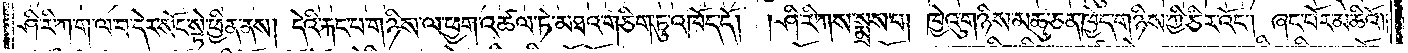ཤི་རི་ཀ་ག་ལ་བ་དེར་སོང་སྟེ་ཕྱིན་ནས། དེའི་རྐང་པ་གཉིས་ལ་ཕྱག་འཚལ་ཏེ་མཐའ་གཅིག་ཏུ་འཁོད་དོ། །ཤི་རི་ཀས་སྨྲས་པ། ཁྱེའུ་གཉིས་མཆུ་ཅན་ཁྱེད་གཉིས་ཀྱི་ཅིར་འོང༌། ཞང་པོར་མཆིའོ༎
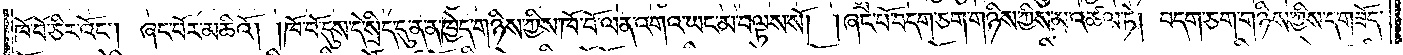ཁོ་བོ་ཅིར་འོང༌། ཞང་པོར་མཆིའོ། །ཁོ་བོ་དུས་དེ་སྲིད་དུ་ན་ན་ཁྱེད་གཉིས་ཀྱིས་ཁོ་བོ་ལན་འགའ་ཡང་མ་བལྟས་སོ། །ཞང་པོ་བདག་ཅག་གཉིས་ཀྱིས་མ་འཚལ་ཏེ། བདག་ཅག་གཉིས་ཀྱིས་ད་གཟོད་
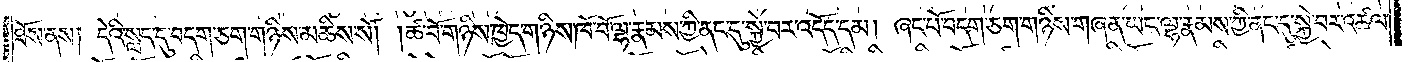ཐོས་ནས། དེའི་སླད་དུ་བདག་ཅག་གཉིས་མཆིས་སོ། །ཚ་བོ་གཉིས་ཁྱེད་གཉིས་ཁོ་བོ་ལྷ་རྣམས་ཀྱི་ནང་དུ་སྐྱེ་བར་འདོད་དམ། ཞང་པོ་བདག་ཅག་གཉིས་གཞན་ཡང་ལྷ་རྣམས་ཀྱི་ནང་དུ་སྐྱེ་བར་འཚལ་
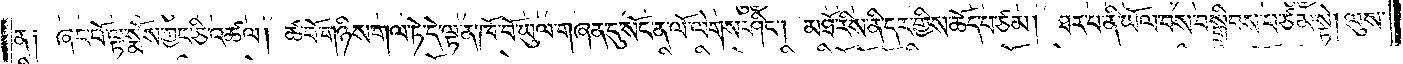ན༑ ཞང་པོ་ལྟ་སྨོས་ཀྱང་ཅི་འཚལ། ཚ་བོ་གཉིས་གལ་ཏེ་དེ་ལྟ་ན་ཁོ་བོ་ཡུལ་གཞན་དུ་སོང་ན་ལོ་ལེགས་ཤིང༌། མཐོ་རིས་ནི་དར་གྱིས་ཆོད་པ་ཙམ། ཐར་པ་ནི་ཡོལ་བས་བསྒྲིབས་པ་ཙམ་སྟེ། ལུས་
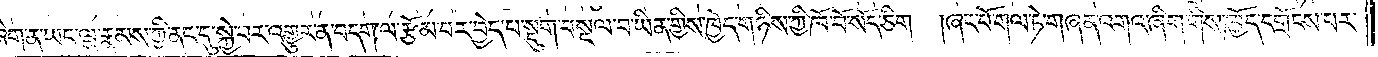ཞིག་ན་ཡང་ལྷ་རྣམས་ཀྱི་ནང་དུ་སྐྱེ་བར་འགྱུར་ན་བདག་ལ་རྩོམ་པར་བྱེད་པ་སྡུག་བསྔལ་བ་ཡིན་གྱིས་ཁྱེད་གཉིས་ཀྱི་ཁོ་བོ་སོད་ཅིག  །ཞང་པོ་གལ་ཏེ་གཞན་འགའ་ཞིག་གིས་ཁྱོད་དགྲོངས་པར་
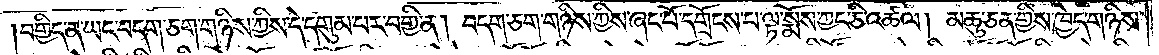བགྱིད་ན་ཡང་བདག་ཅག་གཉིས་ཀྱིས་དེ་དགུམ་པར་བགྱི་ན། བདག་ཅག་གཉིས་ཀྱིས་ཞང་པོ་དགྲོངས་པ་ལྟ་སྨོས་ཀྱང་ཅི་འཚལ། མཆུ་ཅན་གྱིས་ཁྱེད་གཉིས་
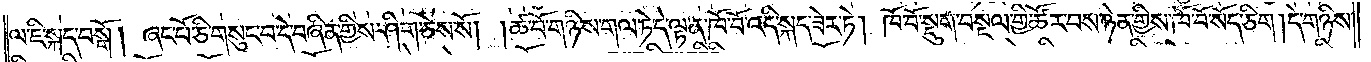ལ་ཇི་སྐད་བསྒོ། ཞང་པོ་ཅི་གསུང་བ་དེ་བཞིན་གྱིས་ཤིག་ཅེས་སོ། །ཚ་བོ་གཉིས་གལ་ཏེ་དེ་ལྟ་ན་ཁོ་བོ་འདི་སྐད་ཟེར་ཏེ། ཁོ་བོ་སྡུག་བསྔལ་གྱི་ཚོར་བས་ཉེན་གྱིས་ཁོ་བོ་སོད་ཅིག །དེ་གཉིས་
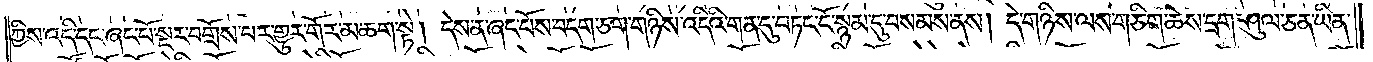ཀྱིས་འདི་དང་ཞང་པོ་སྔར་བགྲོས་པར་གྱུར་གོར་མ་ཆག་སྟེ། དེས་ན་ཞང་པོས་བདག་ཅག་གཉིས་འདིའི་གན་དུ་བཏང་ངོ་སྙམ་དུ་བསམས་ནས། དེ་གཉིས་ལས་གཅིག་ཆེས་དྲག་ཤུལ་ཅན་ཡིན་
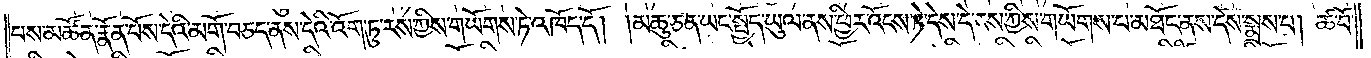པས་མཚོན་རྣོན་པོས་དེའི་མགོ་བཅད་ནས་དེའི་འོག་ཏུ་རས་ཀྱིས་གཡོགས་ཏེ་འཁོད་དོ། །མཆུ་ཅན་ཡང་སྤྱོད་ཡུལ་ནས་ཕྱིར་འོངས་ཏེ་དེས་དེ་རས་ཀྱིས་གཡོགས་པ་མཐོང་ནས་དེས་སྨྲས་པ། ཚ་བོ་
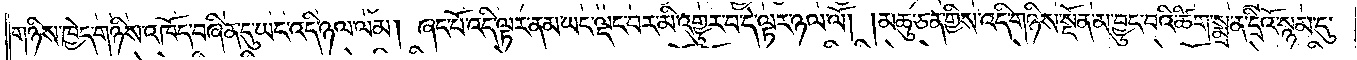གཉིས་ཁྱེད་གཉིས་འཁོད་བཞིན་དུ་ཡང་འདི་ཉལ་ལམ། ཞང་པོ་འདི་ལྟར་ནམ་ཡང་ལྡང་བར་མི་འགྱུར་བ་དེ་ལྟར་ཉལ་ལོ། །མཆུ་ཅན་གྱིས་འདི་གཉིས་སྔོན་མ་བྱུང་བའི་ཚིག་སྨྲ་ན་དྲིའོ་སྙམ་དུ་
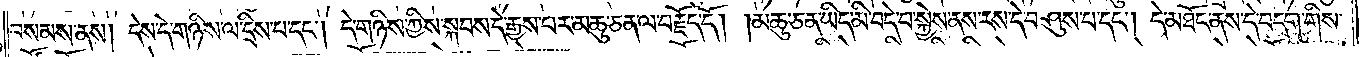བསམས་ནས། དེས་དེ་གཉིས་ལ་དྲིས་པ་དང༌། དེ་གཉིས་ཀྱིས་སྐབས་དེ་རྒྱས་པར་མཆུ་ཅན་ལ་བརྗོད་དོ། །མཆུ་ཅན་ཡིད་མི་བདེ་བ་སྐྱེས་ནས་རས་དེ་བཤུས་པ་དང༌། དེ་མཐོང་ནས་དེ་བདག་གིས་
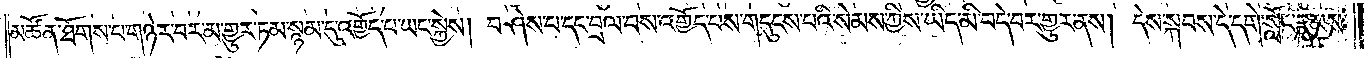མཚོན་ཐོགས་པ་གཉེར་བར་མ་གྱུར་ཏམ་སྙམ་དུ་འགྱོད་པ་ཡང་སྐྱེས། བཤེས་པ་དང་བྲལ་བས་འགྱོད་པས་གདུངས་པའི་སེམས་ཀྱིས་ཡིད་མི་བདེ་བར་གྱུར་ནས། དེས་སྐབས་དེ་དགེ་སློང་རྣམས་
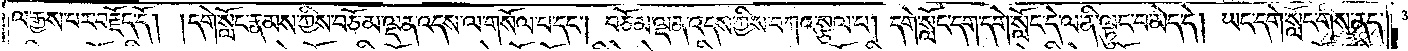ལ་རྒྱས་པར་བརྗོད་དོ། །དགེ་སློང་རྣམས་ཀྱིས་བཅོམ་ལྡན་འདས་ལ་གསོལ་པ་དང༌། བཅོམ་ལྡན་འདས་ཀྱིས་བཀའ་སྩལ་པ། དགེ་སློང་དག་དགེ་སློང་དེ་ལ་ནི་ལྟུང་བ་མེད་དེ། ཡང་དགེ་སློང་གིས་ནད་
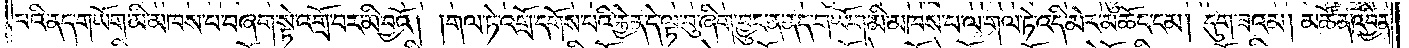པའི་ནད་གཡོག་མི་མཁས་པ་བཞག་སྟེ་འགྲོ་བར་མི་བྱའོ། །གལ་ཏེ་འགྲོ་དགོས་པའི་རྐྱེན་དེ་ལྟ་བུ་ཞིག་བྱུང་ན་ནད་གཡོག་མི་མཁས་པ་ལ་གལ་ཏེ་འདི་མེར་མཆོང་ངམ། དུག་ཟའམ། མཚོན་འབྱིན་
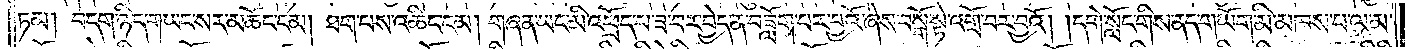ཏམ། བདག་ཉིད་གཡང་སར་མཆོང་ངམ། ཐག་པས་འཆིང་ངམ། གཞན་ཡང་མི་འཕྲོད་པ་ཟ་བར་བྱེད་ན་བཟློག་པར་བྱའོ་ཞེས་བསྒོ་སྟེ་འགྲོ་བར་བྱའོ། །དགེ་སློང་གིས་ནད་གཡོག་མི་མཁས་པ་ལ་མ་
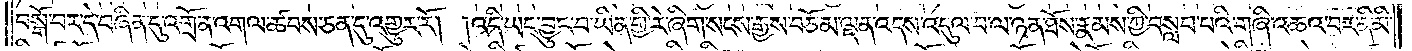བསྒོ་བར་དེ་བཞིན་དུ་འགྲོ་ན་འགལ་ཚབས་ཅན་དུ་འགྱུར་རོ། །འདི་ཡང་བྱུང་བ་ཡིན་གྱི་རེ་ཞིག་སངས་རྒྱས་བཅོམ་ལྡན་འདས་འདུལ་བ་ལ་ཉན་ཐོས་རྣམས་ཀྱི་བསླབ་པའི་གཞི་འཆའ་བར་ནི་མི་
